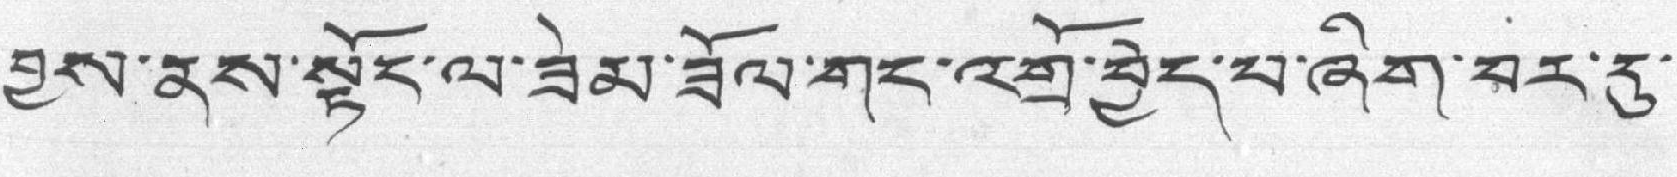བྱས་ནས་སྟོང་ལ་ཟེམ་ཟོལ་གང་འགྲོ་བྱེད་པ་ཞིག་བར་དུ་
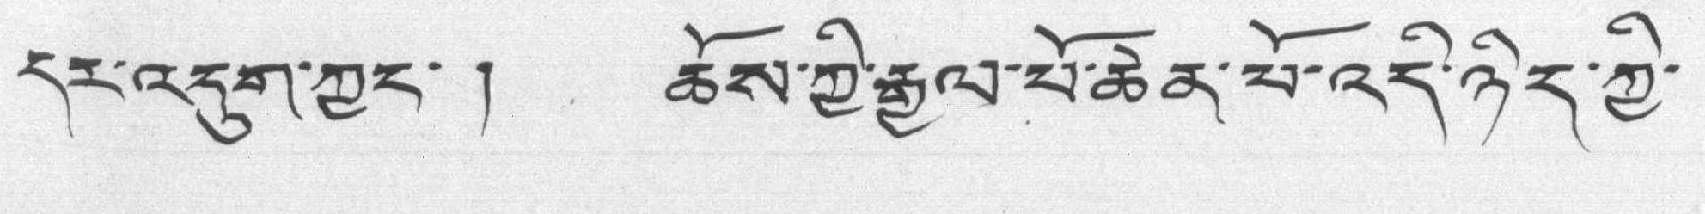དར་འདུག་ཀྱང་ ། ཆོས་ཀྱི་རྒྱལ་པོ་ཆེན་པོ་འདི་ཉིད་ཀྱི་
